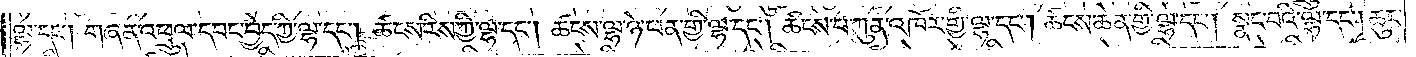ལྷ་དང༌། གཞན་འཕྲུལ་དབང་བྱེད་ཀྱི་ལྷ་དང༌། ཚངས་རིས་ཀྱི་ལྷ་དང༌། ཚངས་ལྷ་ཉེ་ཕན་གྱི་ལྷ་དང༌། ཚངས་པ་ཀུན་འཁོར་གྱི་ལྷ་དང༌། ཚངས་ཆེན་གྱི་ལྷ་དང༌། སྣང་བའི་ལྷ་དང༌། ཆུང་
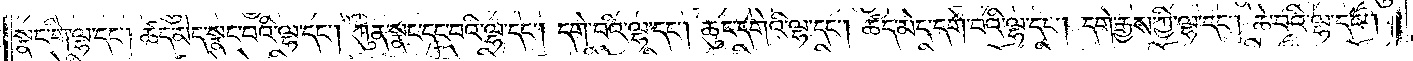སྣང་གི་ལྷ་དང༌། ཚད་མེད་སྣང་བའི་ལྷ་དང༌། ཀུན་སྣང་དང་བའི་ལྷ་དང༌། དགེ་བའི་ལྷ་དང༌། ཆུང་དགེའི་ལྷ་དང༌། ཚད་མེད་དགེ་བའི་ལྷ་དང༌། དགེ་རྒྱས་ཀྱི་ལྷ་དང༌། ཆེ་བའི་ལྷ་དང༌།
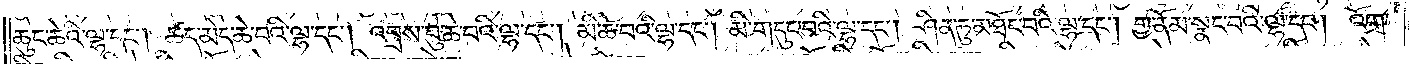ཆུང་ཆེའི་ལྷ་དང༌། ཚད་མེད་ཆེ་བའི་ལྷ་དང༌། འབྲས་བུ་ཆེ་བའི་ལྷ་དང༌། མི་ཆེ་བའི་ལྷ་དང༌། མི་གདུང་བའི་ལྷ་དང༌། ཤིན་ཏུ་མཐོང་བའི་ལྷ་དང༌། གྱ་ནོམ་སྣང་བའི་ལྷ་དང༌། འོག་
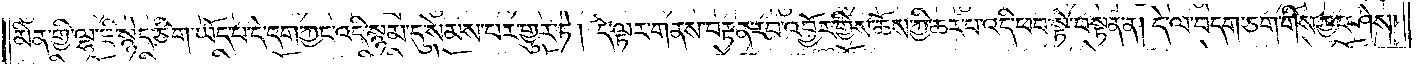མིན་གྱི་ལྷ་ཇི་སྙེད་ཅིག་ཡོད་པ་དེ་དག་ཀྱང་འདི་སྙམ་དུ་སེམས་པར་གྱུར་ཏེ། དེ་ལྟར་གནས་བརྟན་རབ་འབྱོར་གྱིས་ཆོས་ཀྱི་ཆར་པ་འདི་ཕབ་སྟེ་བསྟན་ན། དེ་ལ་བདག་ཅག་གིས་ཀྱང་ཤེས་
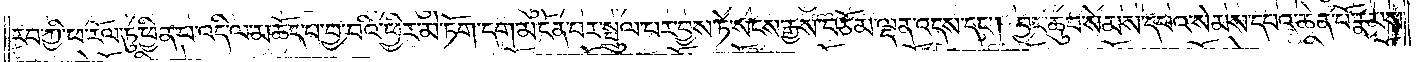རབ་ཀྱི་ཕ་རོལ་ཏུ་ཕྱིན་པ་འདི་ལ་མཆོད་པ་བྱ་བའི་ཕྱིར། མེ་ཏོག་དག་མངོན་པར་སྤྲུལ་པར་བྱས་ཏེ་སངས་རྒྱས་བཅོམ་ལྡན་འདས་དང༌། བྱང་ཆུབ་སེམས་དཔའ་སེམས་དཔའ་ཆེན་བོ་རྣམས་
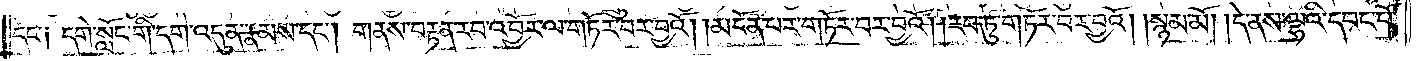དང༌། དགེ་སློང་གི་དགེ་འདུན་རྣམས་དང༌། གནས་བརྟན་རབ་འབྱོར་ལ་གཏོར་བར་བྱའོ། །མངོན་པར་གཏོར་བར་བྱའོ། །རབ་ཏུ་གཏོར་བར་བྱའོ། སྙམ་མོ། །དེ་ནས་ལྷའི་དབང་པོ་
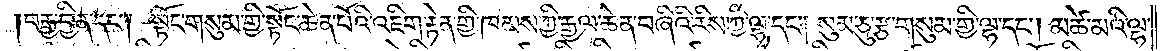བརྒྱ་བྱིན་དང༌། སྟོང་གསུམ་གྱི་སྟོང་ཆེན་པོའི་འཇིག་རྟེན་གྱི་ཁམས་ཀྱི་རྒྱལ་ཆེན་བཞིའི་རིས་ཀྱི་ལྷ་དང༌། སུམ་ཅུ་རྩ་གསུམ་གྱི་ལྷ་དང༌། མཚེ་མའི་ལྷ་
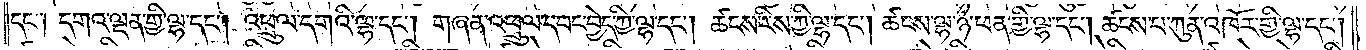དང༌། དགའ་ལྡན་གྱི་ལྷ་དང༌། འཕྲུལ་དགའི་ལྷ་དང༌། གཞན་འཕྲུལ་དབང་བྱེད་ཀྱི་ལྷ་དང༌། ཚངས་རིས་ཀྱི་ལྷ་དང༌། ཚངས་ལྷ་ཉི་ཕན་གྱི་ལྷ་དང༌། ཚངས་པ་ཀུན་འཁོར་གྱི་ལྷ་དང༌།
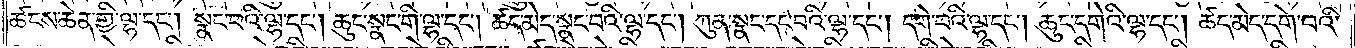ཚངས་ཆེན་གྱི་ལྷ་དང༌། སྣང་བའི་ལྷ་དང༌། ཆུང་སྣང་གི་ལྷ་དང༌། ཚད་མེད་སྣང་བའི་ལྷ་དང༌། ཀུན་སྣང་དང་བའི་ལྷ་དང༌། དགེ་བའི་ལྷ་དང༌། ཆུང་དགེའི་ལྷ་དང༌། ཚད་མེད་དགེ་བའི་
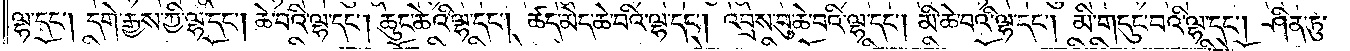ལྷ་དང༌། དགེ་རྒྱས་ཀྱི་ལྷ་དང༌། ཆེ་བའི་ལྷ་དང༌། ཆུང་ཆེའི་ལྷ་དང༌། ཚད་མེད་ཆེ་བའི་ལྷ་དང༌། འབྲས་བུ་ཆེ་བའི་ལྷ་དང༌། མི་ཆེ་བའི་ལྷ་དང༌། མི་གདུང་བའི་ལྷ་དང༌། ཤིན་ཏུ་
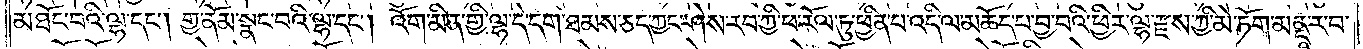མཐོང་བའི་ལྷ་དང༌། གྱ་ནོམ་སྣང་བའི་ལྷ་དང༌། འོག་མིན་གྱི་ལྷ་དེ་དག་ཐམས་ཅད་ཀྱང་ཤེས་རབ་ཀྱི་ཕ་རོལ་ཏུ་ཕྱིན་པ་འདི་ལ་མཆོད་པ་བྱ་བའི་ཕྱིར་ལྷ་རྫས་ཀྱི་མེ་ཏོག་མནྡཱ་ར་བ་
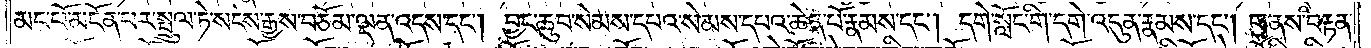མང་པོ་མངོན་པར་སྤྲུལ་ཏེ། སངས་རྒྱས་བཅོམ་ལྡན་འདས་དང༌། བྱང་ཆུབ་སེམས་དཔའ་སེམས་དཔའ་ཆེན་པོ་རྣམས་དང༌། དགེ་སློང་གི་དགེ་འདུན་རྣམས་དང༌། གནས་བརྟན་
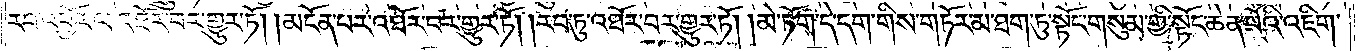རབ་འབྱོར་ལ་འཐོར་བར་གྱུར་ཏོ། །མངོན་པར་འཐོར་བར་གྱུར་ཏོ། །རབ་ཏུ་འཐོར་བར་གྱུར་ཏོ། །མེ་ཏོག་དེ་དག་གིས་གཏོར་མ་ཐག་ཏུ་སྟོང་གསུམ་གྱི་སྟོང་ཆེན་པོའི་འཇིག་
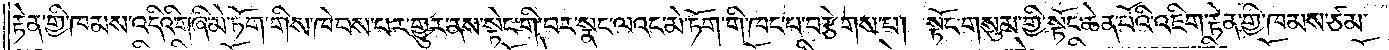རྟེན་གྱི་ཁམས་འདི་གཞི་མེ་ཏོག་གིས་ཁེབས་པར་གྱུར་ནས་སྟོང་གི་བར་སྣང་ལའང་མེ་ཏོག་གི་ཁང་པ་བརྩེགས་པ། སྟོང་གསུམ་གྱི་སྟོང་ཆེན་པོ་འཇིག་རྟེན་གྱི་ཁམས་ཙམ་
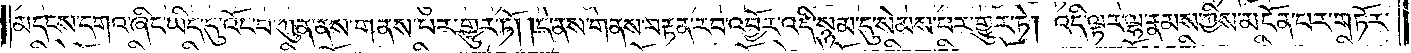མདངས་དགའ་ཞིང་ཡིད་དུ་འོང་བས་ཀུན་ནས་གནས་པར་གྱུར་ཏོ། །དེ་ནས་གནས་བརྟན་རབ་འབྱོར་འདི་སྙམ་དུ་སེམས་པར་གྱུར་ཏེ། འདི་ལྟར་ལྷ་རྣམས་ཀྱིས་མངོན་པར་གཏོར་
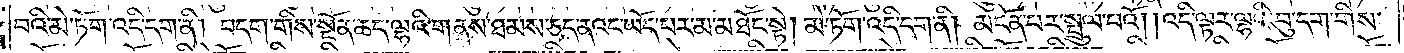བའི་མེ་ཏོག་འདི་དག་ནི། བདག་གིས་སྔོན་ཆད་ལྷའི་གནས་ཐམས་ཅད་ནའང་ཡོད་པར་མ་མཐོང་སྟེ། མེ་ཏོག་འདི་དག་ནི། མངོན་པར་སྤྲུལ་པའོ། །འདི་ལྟར་ལྷའི་ཕུ་དག་གིས་
